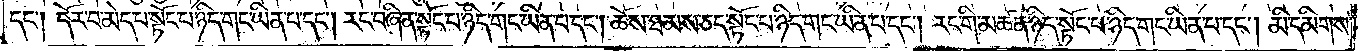དང༌། དོར་བ་མེད་པ་སྟོང་པ་ཉིད་གང་ཡིན་པ་དང༌། རང་བཞིན་སྟོང་པ་ཉིད་གང་ཡིན་པ་དང༌། ཆོས་ཐམས་ཅད་སྟོང་པ་ཉིད་གང་ཡིན་པ་དང༌། རང་གི་མཚན་ཉིད་སྟོང་པ་ཉིད་གང་ཡིན་པ་དང༌། མི་དམིགས་
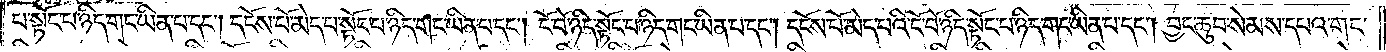པ་སྟོང་པ་ཉིད་གང་ཡིན་པ་དང༌། དངོས་པོ་མེད་པ་སྟོང་པ་ཉིད་གང་ཡིན་པ་དང༌། ངོ་བོ་ཉིད་སྟོང་པ་ཉིད་གང་ཡིན་པ་དང༌། དངོས་པོ་མེད་པའི་ངོ་བོ་ཉིད་སྟོང་པ་ཉིད་གང་ཡིན་པ་དང༌། བྱང་ཆུབ་སེམས་དཔའ་གང་
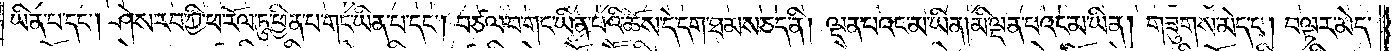ཡིན་པ་དང༌། ཤེས་རབ་ཀྱི་ཕ་རོལ་ཏུ་ཕྱིན་པ་གང་ཡིན་པ་དང༌། བཙལ་པ་གང་ཡིན་པའི་ཆོས་དེ་དག་ཐམས་ཅད་ནི། ལྡན་པའང་མ་ཡིན་མི་ལྡན་པའང་མ་ཡིན། གཟུགས་མེད་པ། བལྟར་མེད་
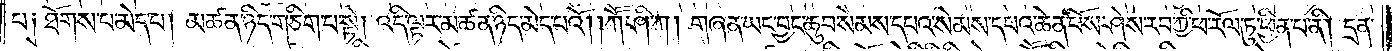པ། ཐོགས་པ་མེད་པ། མཚན་ཉིད་གཅིག་པ་སྟེ། འདི་ལྟར་མཚན་ཉིད་མེད་པའོ། །ཀཽ་ཤི་ཀ། གཞན་ཡང་བྱང་ཆུབ་སེམས་དཔའ་སེམས་དཔའ་ཆེན་པོས་ཤེས་རབ་ཀྱི་ཕ་རོལ་ཏུ་ཕྱིན་པ་ནི། དྲན་
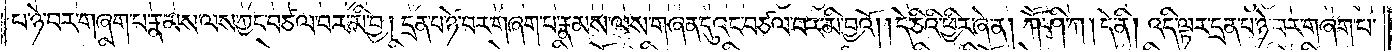པ་ཉེ་བར་གཞག་པ་རྣམས་ལས་ཀྱང་བཙལ་བར་མི་བྱ། དྲན་པ་ཉེ་བར་བཞག་པ་རྣམས་ལས་གཞན་དུའང་བཙལ་བར་མི་བྱའོ། །དེ་ཅིའི་ཕྱིར་ཞེ་ན། ཀཽ་ཤི་ཀ། དེ་ནི། འདི་ལྟར་དྲན་པ་ཉེ་བར་གཞག་པ་
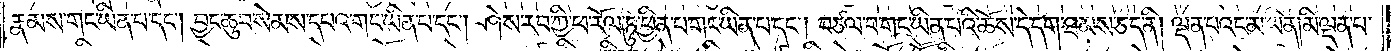རྣམས་གང་ཡིན་པ་དང༌། བྱང་ཆུབ་སེམས་དཔའ་གང་ཡིན་པ་དང༌། ཤེས་རབ་ཀྱི་ཕ་རོལ་ཏུ་ཕྱིན་པ་གང་ཡིན་པ་དང༌། བཙལ་བ་གང་ཡིན་པའི་ཆོས་དེ་དག་ཐམས་ཅད་ནི། ལྡན་པའང་མ་ཡིན། མི་ལྡན་པ་
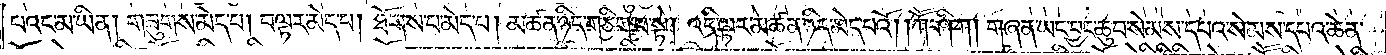པའང་མ་ཡིན། གཟུགས་མེད་པ། བལྟར་མེད་པ། ཐོགས་པ་མེད་པ། མཚན་ཉིད་གཅིག་པ་སྟེ། འདི་ལྟར་མཚན་ཉིད་མེད་པའོ། །ཀཽ་ཤི་ཀ། གཞན་ཡང་བྱང་ཆུབ་སེམས་དཔའ་སེམས་དཔའ་ཆེན་
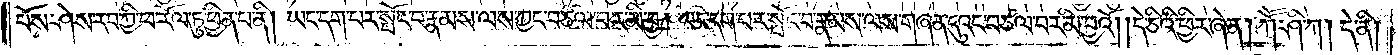པོས་ཤེས་རབ་ཀྱི་ཕ་རོལ་ཏུ་ཕྱིན་པ་ནི། ཡང་དག་པར་སྤོང་བ་རྣམས་ལས་ཀྱང་བཙལ་བར་མི་བྱ། ཡང་དག་པར་སྤོང་བ་རྣམས་ལས་གཞན་དུའང་བཙལ་བར་མི་བྱའོ། །དེ་ཅིའི་ཕྱིར་ཞེ་ན། ཀཽ་ཤི་ཀ། དེ་ནི།
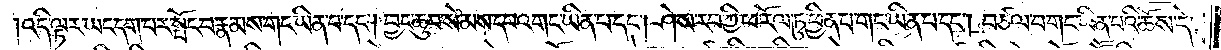འདི་ལྟར་ཡང་དག་པར་སྤོང་བ་རྣམས་གང་ཡིན་པ་དང༌། བྱང་ཆུབ་སེམས་དཔའ་གང་ཡིན་པ་དང༌། ཤེས་རབ་ཀྱི་ཕ་རོལ་ཏུ་ཕྱིན་པ་གང་ཡིན་པ་དང༌། བཙལ་བ་གང་ཡིན་པའི་ཆོས་དེ་
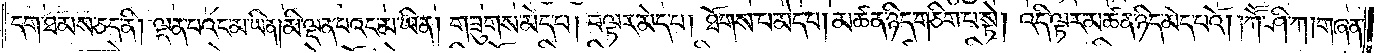དག་ཐམས་ཅད་ནི། ལྡན་པའང་མ་ཡིན་མི་ལྡན་པའང་མ་ཡིན། གཟུགས་མེད་པ། བལྟར་མེད་པ། ཐོགས་པ་མེད་པ། མཚན་ཉིད་གཅིག་པ་སྟེ། འདི་ལྟར་མཚན་ཉིད་མེད་པའོ། །ཀཽ་ཤི་ཀ། གཞན་
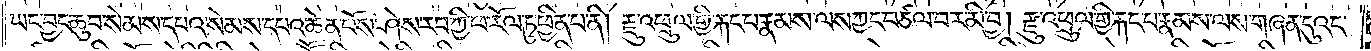ཡང་བྱང་ཆུབ་སེམས་དཔའ་སེམས་དཔའ་ཆེན་པོས་ཤེས་རབ་ཀྱི་ཕ་རོལ་ཏུ་ཕྱིན་པ་ནི། རྫུ་འཕྲུལ་གྱི་རྐང་པ་རྣམས་ལས་ཀྱང་བཙལ་བར་མི་བྱ། རྫུ་འཕྲུལ་གྱི་རྐང་པ་རྣམས་ལས་གཞན་དུའང་
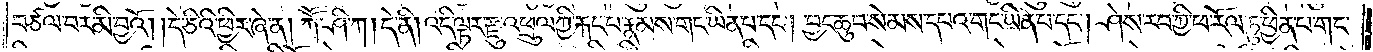བཙལ་བར་མི་བྱའོ། །དེ་ཅིའི་ཕྱིར་ཞེ་ན། ཀཽ་ཤི་ཀ། དེ་ནི། འདི་ལྟར་རྫུ་འཕྲུལ་གྱི་རྐང་པ་རྣམས་གང་ཡིན་པ་དང༌། བྱང་ཆུབ་སེམས་དཔའ་གང་ཡིན་པ་དང༌། ཤེས་རབ་ཀྱི་ཕ་རོལ་ཏུ་ཕྱིན་པ་གང་
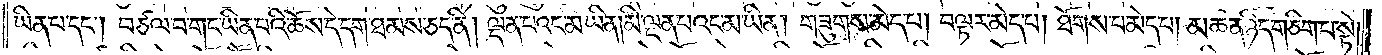ཡིན་པ་དང༌། བཙལ་བ་གང་ཡིན་པའི་ཆོས་དེ་དག་ཐམས་ཅད་ནི། ལྡན་པའང་མ་ཡིན། མི་ལྡན་པའང་མ་ཡིན། གཟུགས་མེད་པ། བལྟར་མེད་པ། ཐོགས་པ་མེད་པ། མཚན་ཉིད་གཅིག་པ་སྟེ།
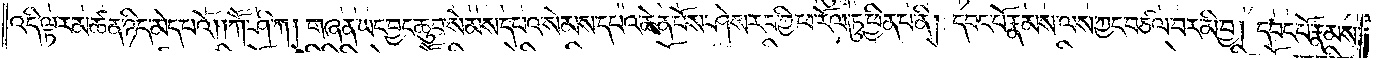འདི་ལྟར་མཚན་ཉིད་མེད་པའོ། །ཀཽ་ཤི་ཀ། གཞན་ཡང་བྱང་ཆུབ་སེམས་དཔའ་སེམས་དཔའ་ཆེན་པོས་ཤེས་རབ་ཀྱི་ཕ་རོལ་ཏུ་ཕྱིན་པ་ནི། དབང་པོ་རྣམས་ལས་ཀྱང་བཙལ་བར་མི་བྱ། དབང་པོ་རྣམས་
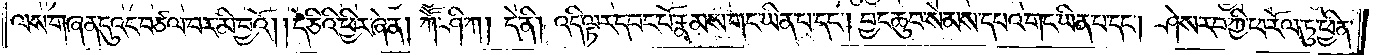ལས་གཞན་དུའང་བཙལ་བར་མི་བྱའོ། །དེ་ཅིའི་ཕྱིར་ཞེ་ན། ཀཽ་ཤི་ཀ། དེ་ནི། འདི་ལྟར་དབང་པོ་རྣམས་གང་ཡིན་པ་དང༌། བྱང་ཆུབ་སེམས་དཔའ་གང་ཡིན་པ་དང༌། ཤེས་རབ་ཀྱི་ཕ་རོལ་ཏུ་ཕྱིན་
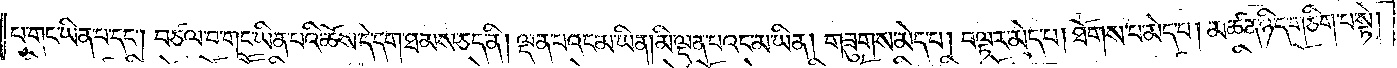པ་གང་ཡིན་པ་དང༌། བཙལ་བ་གང་ཡིན་པའི་ཆོས་དེ་དག་ཐམས་ཅད་ནི། ལྡན་པའང་མ་ཡིན། མི་ལྡན་པའང་མ་ཡིན། གཟུགས་མེད་པ། བལྟར་མེད་པ། ཐོགས་པ་མེད་པ། མཚན་ཉིད་གཅིག་པ་སྟེ།
